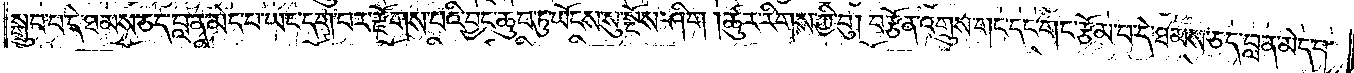སྒྲུབ་པ་དེ་ཐམས་ཅད་བླ་ན་མེད་པ་ཡང་དག་པར་རྫོགས་པའི་བྱང་ཆུབ་ཏུ་ཡོངས་སུ་སྔོས་ཤིག །ཚུར་རིགས་ཀྱི་བུ། བརྩོན་འགྲུས་གང་དང་གང་རྩོམ་པ་དེ་ཐམས་ཅད་བླ་ན་མེད་པ་
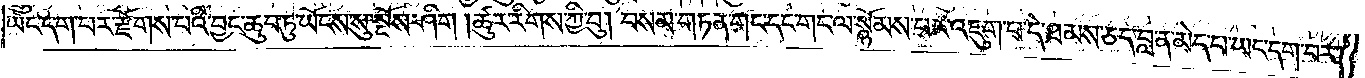ཡང་དག་པར་རྫོགས་པའི་བྱང་ཆུབ་ཏུ་ཡོངས་སུ་སྔོས་ཤིག །ཚུར་རིགས་ཀྱི་བུ། བསམ་གཏན་གང་དང་གང་ལ་སྙོམས་པར་འཇུག་པ་དེ་ཐམས་ཅད་བླ་ན་མེད་པ་ཡང་དག་པར་
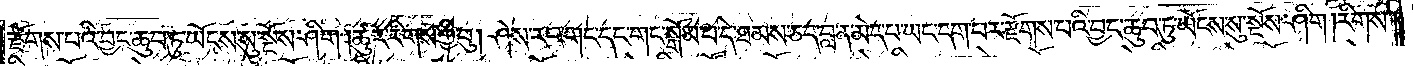རྫོགས་པའི་བྱང་ཆུབ་ཏུ་ཡོངས་སུ་སྔོས་ཤིག །ཚུར་རིགས་ཀྱི་བུ། ཤེས་རབ་གང་དང་གང་སྒོམ་པ་དེ་ཐམས་ཅད་བླ་ན་མེད་པ་ཡང་དག་པར་རྫོགས་པའི་བྱང་ཆུབ་ཏུ་ཡོངས་སུ་སྔོས་ཤིག །རིགས་
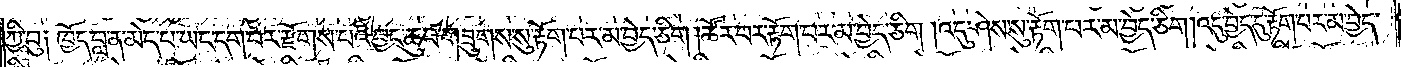ཀྱི་བུ། ཁྱོད་བླ་ན་མེད་པ་ཡང་དག་པར་རྫོགས་པའི་བྱང་ཆུབ་གཟུགས་སུ་རྟོག་པར་མ་བྱེད་ཅིག །ཚོར་བར་རྟོག་པར་མ་བྱེད་ཅིག །འདུ་ཤེས་སུ་རྟོག་པར་མ་བྱེད་ཅིག །འདུ་བྱེད་དུ་རྟོག་པར་མ་བྱེད་
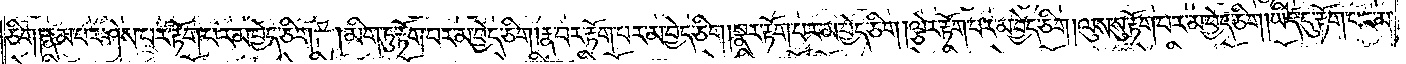ཅིག །རྣམ་པར་ཤེས་པར་རྟོག་པར་མ་བྱེད་ཅིག །མིག་ཏུ་རྟོག་པར་མ་བྱེད་ཅིག །རྣ་བར་རྟོག་པར་མ་བྱེད་ཅིག །སྣར་རྟོག་པར་མ་བྱེད་ཅིག །ལྕེར་རྟོག་པར་མ་བྱེད་ཅིག །ལུས་སུ་རྟོག་པར་མ་བྱེད་ཅིག །ཡིད་དུ་རྟོག་པར་མ་
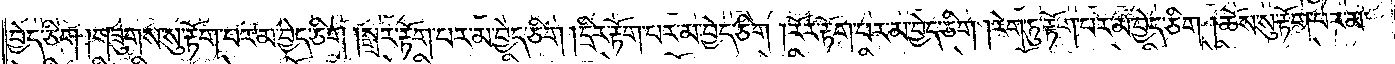བྱེད་ཅིག །གཟུགས་སུ་རྟོག་པར་མ་བྱེད་ཅིག །སྒྲར་རྟོག་པར་མ་བྱེད་ཅིག །དྲིར་རྟོག་པར་མ་བྱེད་ཅིག །རོར་རྟོག་པར་མ་བྱེད་ཅིག །རེག་ཏུ་རྟོག་པར་མ་བྱེད་ཅིག །ཆོས་སུ་རྟོག་པར་མ་
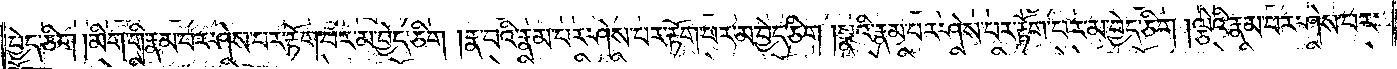བྱེད་ཅིག །མིག་གི་རྣམ་པར་ཤེས་པར་རྟོག་པར་མ་བྱེད་ཅིག །རྣ་བའི་རྣམ་པར་ཤེས་པར་རྟོག་པར་མ་བྱེད་ཅིག །སྣའི་རྣམ་པར་ཤེས་པར་རྟོག་པར་མ་བྱེད་ཅིག །ལྕེའི་རྣམ་པར་ཤེས་པར་
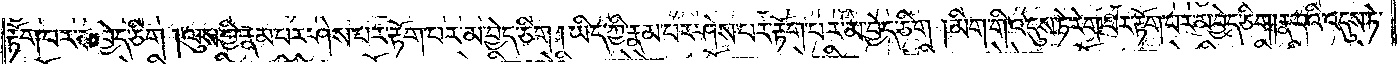རྟོག་པར་མ་བྱེད་ཅིག །ལུས་ཀྱི་རྣམ་པར་ཤེས་པར་རྟོག་པར་མ་བྱེད་ཅིག །ཡིད་ཀྱི་རྣམ་པར་ཤེས་པར་རྟོག་པར་མ་བྱེད་ཅིག །མིག་གི་འདུས་ཏེ་རེག་པར་རྟོག་པར་མ་བྱེད་ཅིག །རྣ་བའི་འདུས་ཏེ་
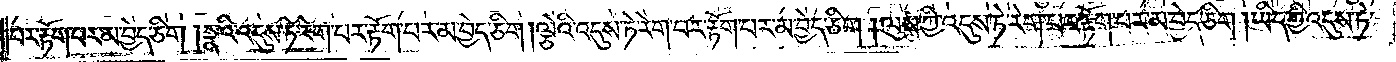པར་རྟོག་པར་མ་བྱེད་ཅིག །སྣའི་འདུས་ཏེ་རེག་པར་རྟོག་པར་མ་བྱེད་ཅིག །ལྕེའི་འདུས་ཏེ་རེག་པར་རྟོག་པར་མ་བྱེད་ཅིག །ལུས་ཀྱི་འདུས་ཏེ་རེག་པར་རྟོག་པར་མ་བྱེད་ཅིག །ཡིད་ཀྱི་འདུས་ཏེ་
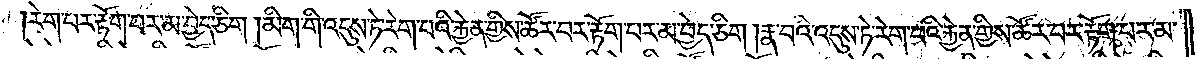རེག་པར་རྟོག་པར་མ་བྱེད་ཅིག །མིག་གི་འདུས་ཏེ་རེག་པའི་རྐྱེན་གྱིས་ཚོར་བར་རྟོག་པར་མ་བྱེད་ཅིག །རྣ་བའི་འདུས་ཏེ་རེག་པའི་རྐྱེན་གྱིས་ཚོར་བར་རྟོག་པར་མ་
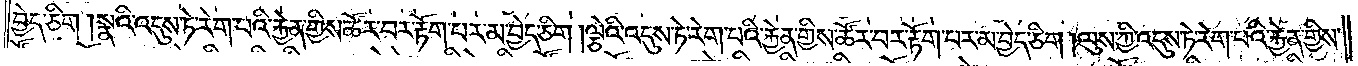བྱེད་ཅིག །སྣའི་འདུས་ཏེ་རེག་པའི་རྐྱེན་གྱིས་ཚོར་བར་རྟོག་པར་མ་བྱེད་ཅིག །ལྕེའི་འདུས་ཏེ་རེག་པའི་རྐྱེན་གྱིས་ཚོར་བར་རྟོག་བར་མ་བྱེད་ཅིག །ལུས་ཀྱི་འདུས་ཏེ་རེག་པའི་རྐྱེན་གྱིས་
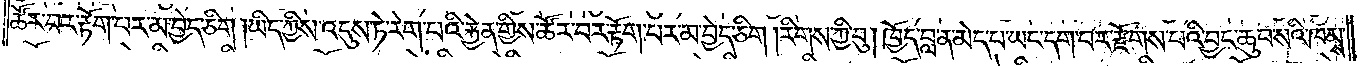ཚོར་བར་རྟོག་པར་མ་བྱེད་ཅིག །ཡིད་ཀྱི་འདུས་ཏེ་རེག་པའི་རྐྱེན་གྱིས་ཚོར་བར་རྟོག་པར་མ་བྱེད་ཅིག །རིགས་ཀྱི་བུ། ཁྱོད་བླ་ན་མེད་པ་ཡང་དག་པར་རྫོགས་པའི་བྱང་ཆུབ་སའི་ཁམས་
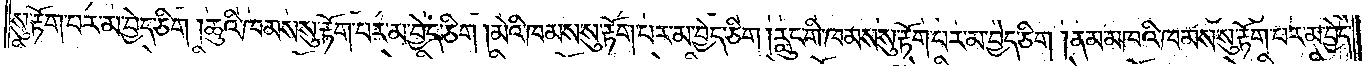སུ་རྟོག་པར་མ་བྱེད་ཅིག །ཆུའི་ཁམས་སུ་རྟོག་པར་མ་བྱེད་ཅིག །མེའི་ཁམས་སུ་རྟོག་པར་མ་བྱེད་ཅིག །རླུང་གི་ཁམས་སུ་རྟོག་པར་མ་བྱེད་ཅིག །ནམ་མཁའི་ཁམས་སུ་རྟོག་པར་མ་བྱེད་
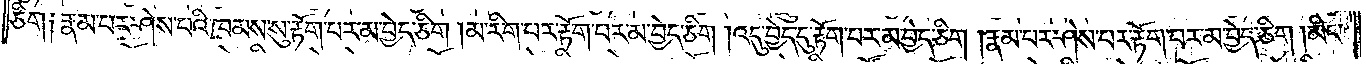ཅིག །རྣམ་པར་ཤེས་པའི་ཁམས་སུ་རྟོག་པར་མ་བྱེད་ཅིག །མ་རིག་པར་རྟོག་པར་མ་བྱེད་ཅིག །འདུ་བྱེད་དུ་རྟོག་པར་མ་བྱེད་ཅིག །རྣམ་པར་ཤེས་པར་རྟོག་པར་མ་བྱེད་ཅིག །མིང་
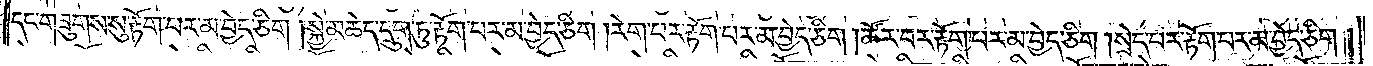དང་གཟུགས་སུ་རྟོག་པར་མ་བྱེད་ཅིག །སྐྱེ་མཆེད་དྲུག་ཏུ་རྟོག་པར་མ་བྱེད་ཅིག །རེག་པར་རྟོག་པར་མ་བྱེད་ཅིག །ཚོར་བར་རྟོག་པར་མ་བྱེད་ཅིག །སྲེད་པར་རྟོག་པར་མ་བྱེད་ཅིག།
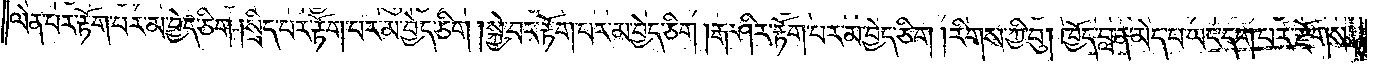ལེན་པར་རྟོག་པར་མ་བྱེད་ཅིག །སྲིད་པར་རྟོག་པར་མ་བྱེད་ཅིག །སྐྱེ་བར་རྟོག་པར་མ་བྱེད་ཅིག །རྒ་ཤིར་རྟོག་པར་མ་བྱེད་ཅིག །རིགས་ཀྱི་བུ། ཁྱོད་བླ་ན་མེད་པ་ཡང་དག་པར་རྫོགས་
